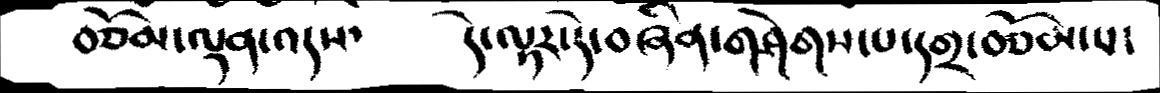བཅོམ་ལྡན་འདས་         དེ་ལྟར་དེ་བཞིན་གཤེགས་པ་དགྲ་བཅོམ་པ་
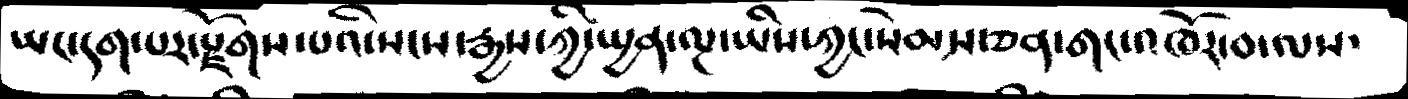ཡང་དག་པར་རྫོགས་པའི་སངས་རྒྱས་ཀྱི་སྤྱན་ལྔ་ཡིན་ཀྱང་སེམས་ཅན་གང་འཁོར་བ་ལས་
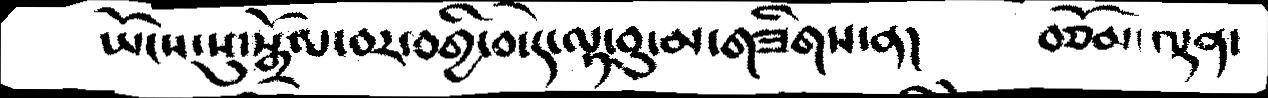ཡོངས་སུ་སྒྲོལ་བར་བགྱི་བ་དེ་ལྟ་བུ་མ་གཟིགས་ན།    བཅོམ་ལྡན་
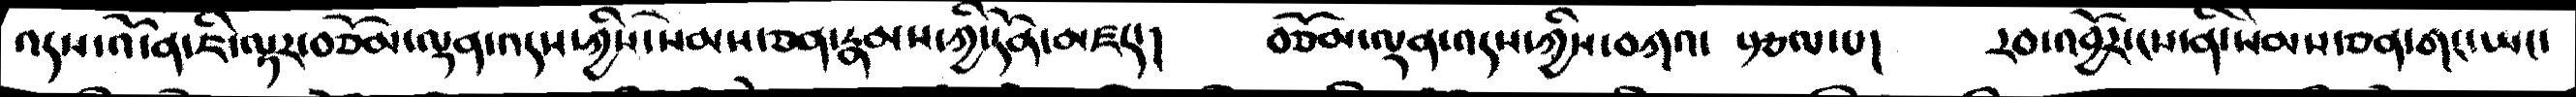འདས་འོ་ན་ཇི་ལྟར་བཅོམ་ལྡན་འདས་ཀྱིས་སེམས་ཅན་རྣམས་ཀྱི་དོན་མཛད་།      བཅོམ་ལྡན་འདས་ཀྱིས་བཀའ་ རྩལ་པ།   རབ་འབྱོར་ངས་ནི་སེམས་ཅན་གང་ཡང་
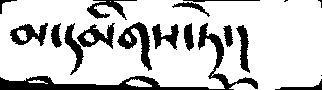མ་དམིགས་ཏེ་།
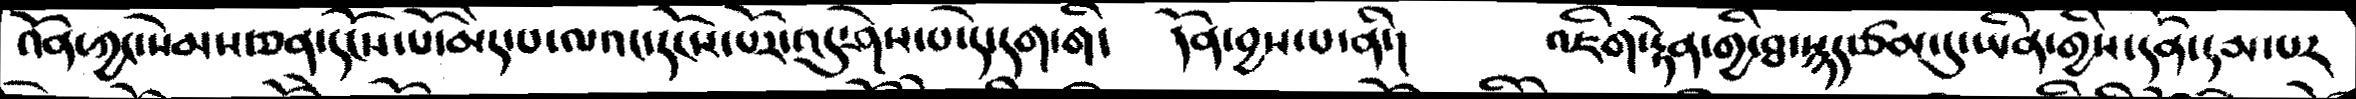འོན་ཀྱང་སེམས་ཅན་དངོས་པོ་མེད་པ་ལའང་དངོས་པོར་འདུ་ཤེས་པ་དེ་དག་གི་   དོན་བྱས་པ་ནི་།     འཇིག་རྟེན་གྱི་ཐ་སྙད་ཙམ་དུ་ཡིན་གྱིས་དོན་དམ་པར
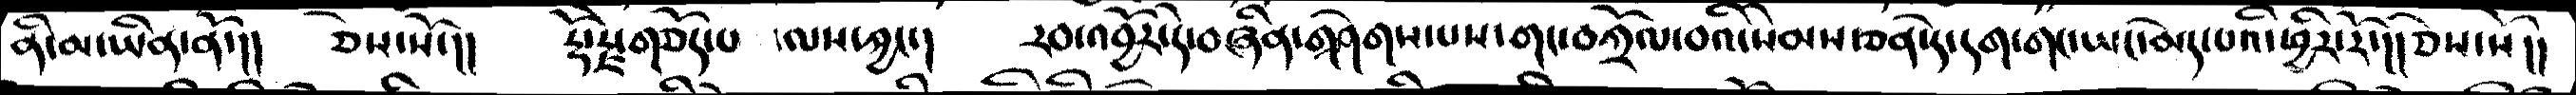ནི་མ་ཡིན་ནོ་།།   ཅེས་སོ་།།   རྡོ་རྗེ་གཅོད་པ   ་ལས་ཀྱང་།   རབ་འབྱོར་དེ་བཞིན་གཤེགས་པས་གང་བཀྲོལ་བའི་སེམས་ཅན་དེ་དག་གང་ཡང་མེད་པའི་ཕྱིར་རོ་།།ཅེས་སོ།།
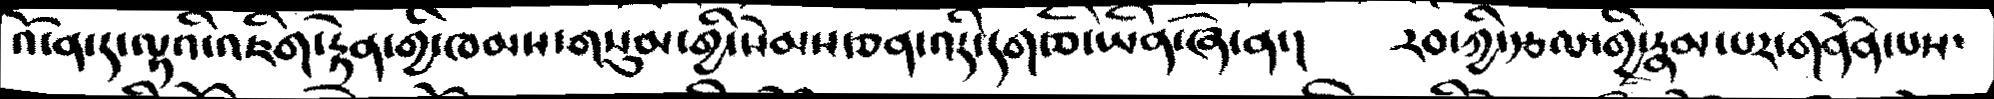འོ་ན་ད་ལྟའི་འཇིག་རྟེན་གྱི་ཁམས་གསུམ་གྱི་སེམས་ཅན་འདི་དག་ཅི་ཡིན་ཞེ་ན་།    རབ་ཀྱི་རྩལ་གྱི་རྣམ་པར་གནོན་པས་
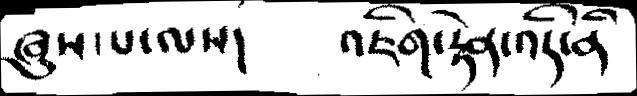ཞུས་པ་ལས།   འཇིག་རྟེན་འདི་ནི
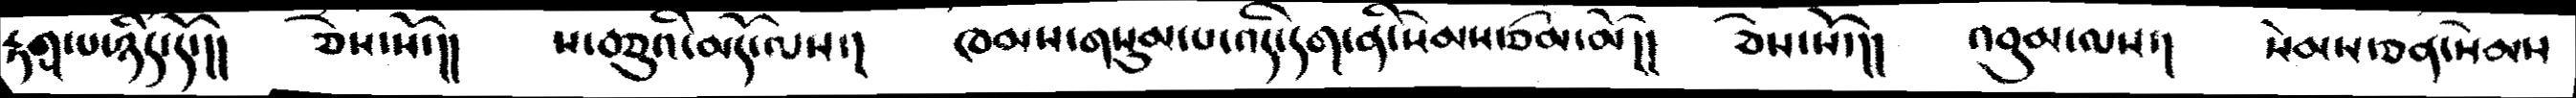རྟགས་པ་འདི་ཉིད་དོ་།།  ཅེས་སོ་།།   ས་བཅུའི་མདོ་ལས་།   ཁམས་གསུམ་པ་འདི་དག་ནི་སེམས་ཙམ་མོ།།  ཅེས་སོ་།།   འབུམ་ལས་།   སེམས་ཅན་སེམས
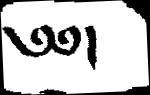༄༅།
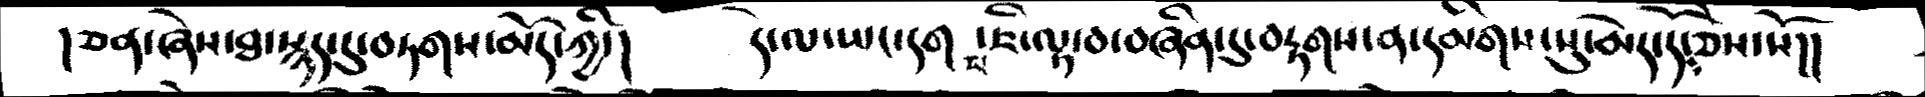།ཅན་ཞེས་ཐ་སྙད་དུ་བཏགས་མོད་ཀྱི་།     དེ་ལ་ཡང་དག་པ་ཇི་ལྟ་བ་བཞིན་དུ་བརྟགས་ན་དམིགས་སུ་མད་དོ་ཅེས་སོ།།
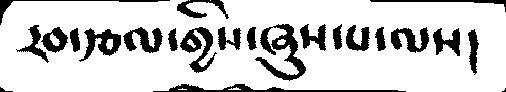རབ་རྩལ་གྱིས་ཞུས་པ་ལས།
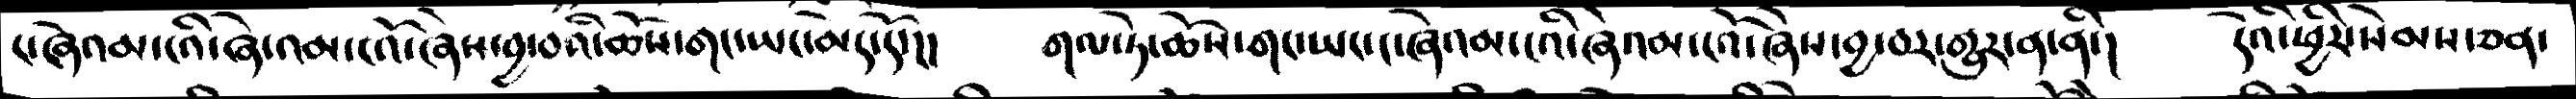ང་ཞེའམ་ངའི་ཞེ་འམ་ངའོ་ཞེས་བྱ་བའི་ཆོས་གང་ཡང་མེད་དོ་།།   གལ་ཏེ་ཆོས་གང་ཡང་ང་ཞེའམ་ངའི་ཞེའམ་ངའོ་ཞེས་བྱ་བར་གྱུར་ན་ནི་།   དེའི་ཕྱིར་སེམས་ཅན་
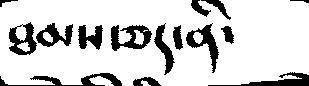ཐམས་ཅད་ནི་
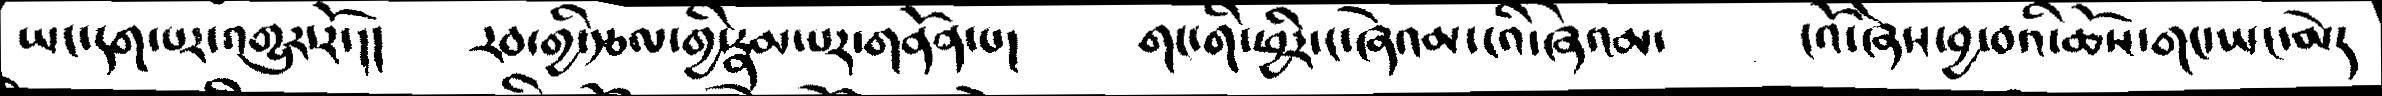ཡང་དག་པར་འགྱུར་རོ་།།  རབ་གྱི་རྩལ་གྱི་རྣམ་པར་གནོན་པ།    གང་གི་ཕྱིར་ང་ཞེའམ་ངའི་ཞེའམ་      ངའོ་ཞེས་བྱ་བའི་ཆོས་གང་ཡང་མེད
